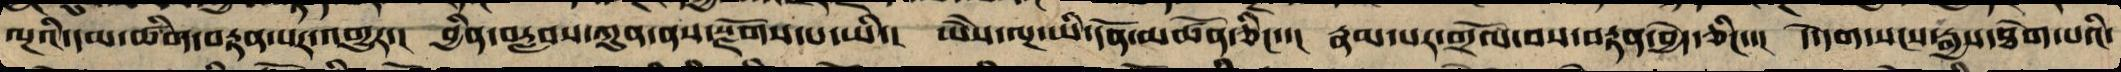ལྔའི་དམ་ཚིག་བརྟན་པར་འགྱུར་། བྱིན་་རླབས་ཀུན་ནས་སྫོགས་པ་ཡི་། ཡཻས་ལྔ་ཡི་དོན་མཚོན་ཅིང་་། རྣམ་པར་གྲོལ་བས་བརྟན་བྱེད་ཅིང་་། དེ་དག་སངས་རྒྱས་ཐེག་པའི་
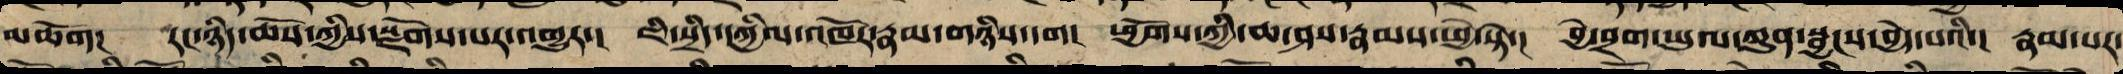མཆོག། རང་ཉིད་ཆོས་ཀྱིས་སྫོགས་པར་འགྱུར་། ཇི་སྲིད་དཀྱིལ་འཁོར་རྣམ་གཉིས་དག། ཕྱོགས་ཀྱི་ཆ་ཤས་རྣམ་ཕྱེ་སྟེ་། བྱེ་བྲག་ཡུལ་ཀུན་སྦྱོང་བྱེད་པའི་། རྣམ་པར་
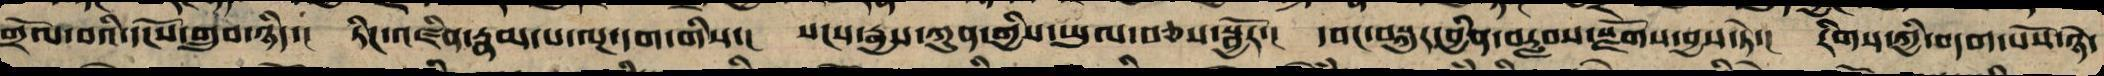གྲོལ་བའི་དངོས་གྲུབ་ཉིད་། ཏིང་འཛིན་རྣམ་པ་ལྔ་དག་གིས་། སངས་རྒྱས་ཀུན་གྱི་ཡུལ་བཅས་སྦྱོར་། དབང་བསྐུར་བྱིན་རླབས་སྫོགས་བྱས་ཏེ་། རིགས་ཀྱི་བདག་པོས་ཉེ་
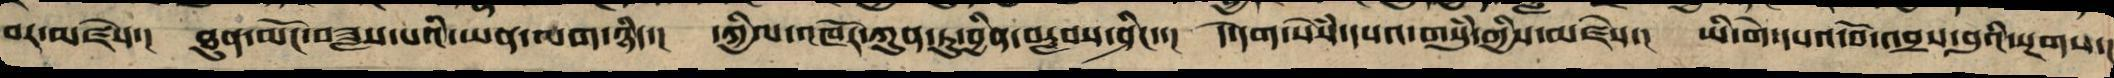བར་མཛེས་། ཐུན་མོང་བཟླས་པའི་ཡན་ལག་ཉིད་། དཀྱིལ་འཁོར་ཀུན་ཏུ་བྱིན་བརླབས་ཤིང་་། དེ་དག་སེམས་དཔའ་གསུཾ་གྱིས་མཛེས་། ཡི་གེ་དཔའ་བོ་འབྲས་བུའི་སྔགས་།
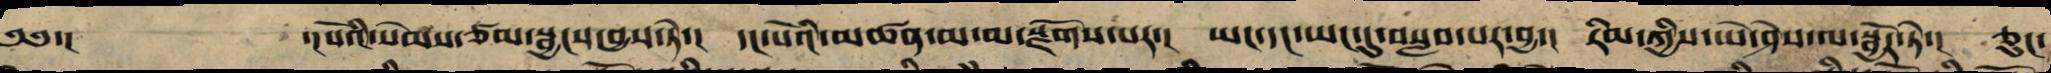༄༅་། ་།པོའི་སེམས་ཙམ་སྦྱངས་བྱས་ཏེ་། དང་པོའི་མཚན་མ་མ་སྫོགས་པར་། ཡང་དང་ཡང་དུ་བསླབ་པར་བྱ་། རིམ་གྱིས་ཡེ་ཤེས་ལ་སྦྱོར་ཏེ་། ཅུང་
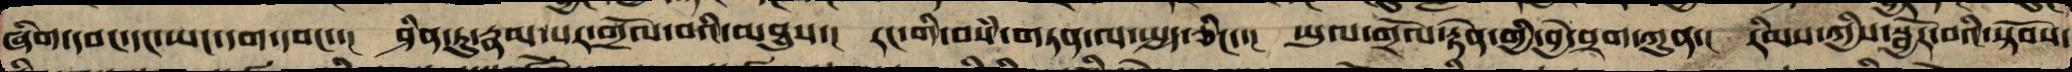ཞིག་དབང་དང་ཡང་དག་དབང་་། ཤིན་ཏུ་རྣམ་པར་གྲོལ་བའི་མཐུས་། རང་གི་བསཾ་གཏན་ལ་སྤྱད་ཅིང་་། ཡུལ་གྲོལ་རྟེན་གྱི་བྱེ་བྲག་ཀུན་། རིམ་གྱིས་སྦྱོར་བའི་སྟོབས་
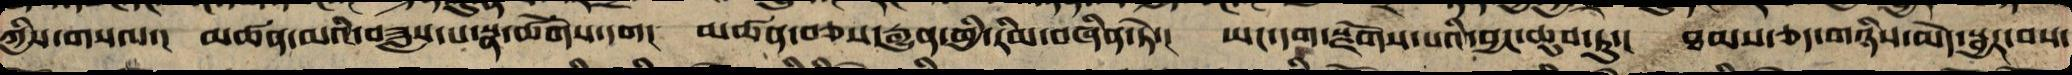ཀྱིས་གསལ་། མཚན་མའི་བཟླས་པ་སྣ་ཚོགས་དག། མཚན་བཅས་རྒྱུན་གྱི་རིམ་བཞིན་ཏེ་། ཡང་དག་སྫོགས་པའི་བྱང་ཆུབ་ཏུ་། ཐམས་ཅད་གཉིས་མེད་སྦྱར་བས་
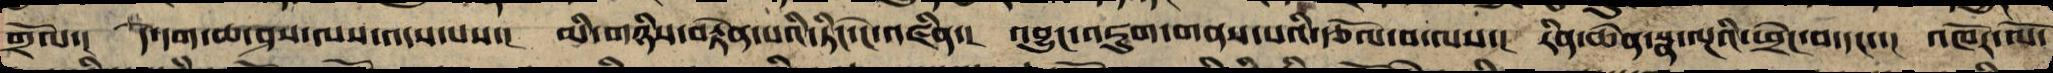གྲོལ་། དེ་དག་ཆ་ཤས་ལས་འདས་པས་། མི་གཉིས་བརྟན་པའི་ཏིང་ངེ་འཛིན་། འབྱུང་འཇུག་གནས་པའི་རྩོལ་བ་ལས་། རིན་ཆེན་སྣ་ལྔའི་ཕྲེང་བ་དང་་། འཁོར་ལོ་
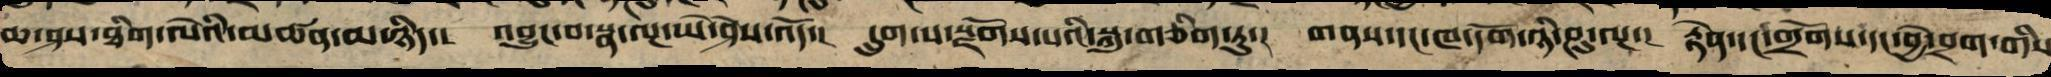ཆ་ཤས་ཐིག་ལེའི་མཚན་མ་ཉིད་། འབྱུང་བ་སྣ་ལྔ་ཡེ་ཤེས་འོད་། དྲུག་པ་སྫོགས་པས་སྐུ་གཅིག་ཏུ་། གནས་དང་ཁ་དོག་ཉི་ཤུ་ལྔ་། རྟེན་དང་གྲོགས་དང་བྱེ་བྲག་གིས
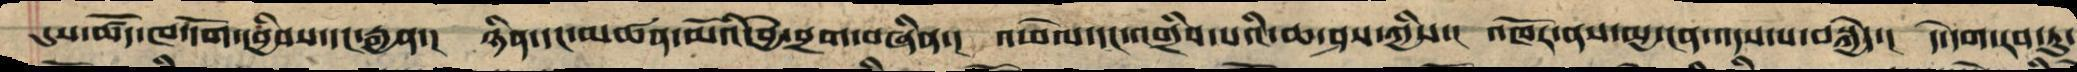དུས་ཚོད་ཁ་དོག་དབྱིབས་དང་རྒྱན་། ཉིན་དང་མཚན་མོའི་བྱེ་བྲག་བཞིན་། འཕེལ་དང་འགྲིབ་པའི་ཆ་ཤས་ཀྱིས་། འཁོར་ནས་མྱ་ངན་འདས་པ་བསྐྱེད་། དེ་དག་རབ་ཏུ་
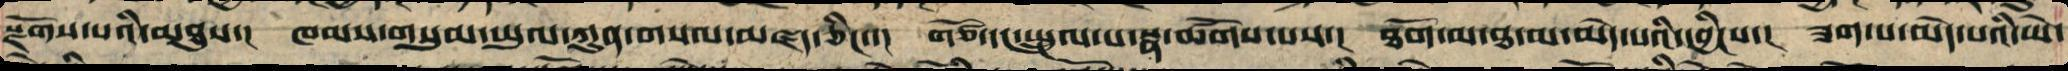སྫོགས་པའི་མཐུས་། ཁམས་གསུམ་ཡུལ་ཀུན་གསལ་མཛད་ཅིང་་། གཙོ་དང་སྤྲུལ་པ་སྣ་ཚོགས་པས་། ཐོག་མ་ཐ་མ་མེད་པའི་དབྱིངས་། ཟག་པ་མེད་པའི་ཡེ་
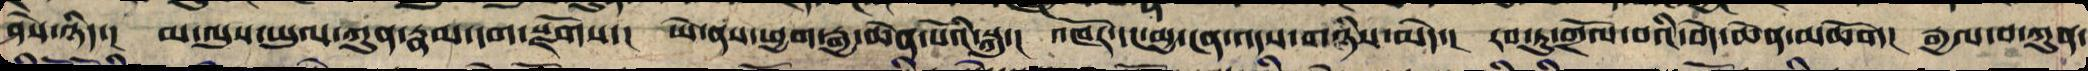ཤེས་ཉིད་། མ་ལུས་ཡུལ་ཀུན་རྣམ་དག་སྫོགས་། དེ་ནས་ཕྱག་རྒྱ་ཆེན་པོའི་སྐུ་། འཁོར་དང་མྱ་ངན་འདས་གཉིས་མེད་། རབ་ཏུ་གྲོལ་བའི་བདེ་ཆེན་མཆོག་ རྒྱལ་བ་ཀུན་
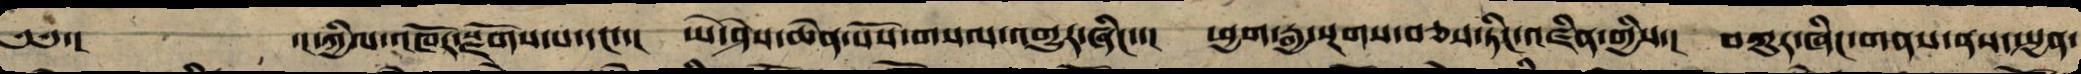༄༅་།  ་།དཀྱིལ་འཁོར་སྫོགས་པ་དང་་། ཡེ་ཤེས་ཆེན་པོས་གསལ་འགྱུར་ཞིང་་། ཕྱག་རྒྱ་སྔགས་བཅས་ཏིང་འཛིན་གྱིས་། བཀུར་ཞིང་གནས་ནས་སྤྱན་
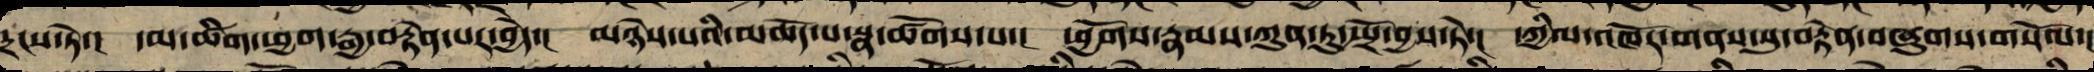དྲངས་ཏེ་། དམ་ཚིག་ཕྱག་རྒྱ་བརྟེན་པར་བྱེད་། མཉེས་པའི་མཆོད་པ་སྣ་ཚོགས་པ་། ཕྱོགས་རྣམས་ཀུན་དུ་སྤྲོ་བྱས་ཏེ་། དཀྱིལ་འཁོར་གནས་སུ་བརྟེན་བཞུགས་གསོལ་།
